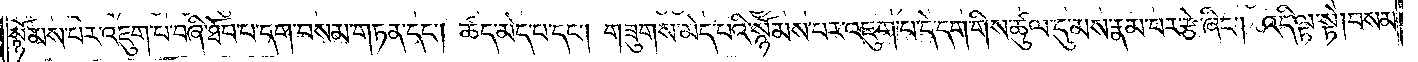སྙོམས་པར་འཇུག་པ་བཞི་ཐོབ་པ་དག་བསམ་གཏན་དང༌། ཚད་མེད་པ་དང༌། གཟུགས་མེད་པའི་སྙོམས་པར་འཇུག་པ་དེ་དག་གིས་ཚུལ་དུ་མས་རྣམ་པར་རྩེ་ཞིང༌། འདི་ལྟ་སྟེ། བསམ་
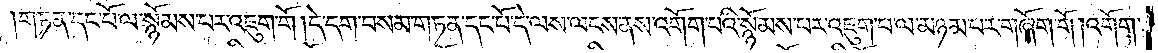གཏན་དང་པོ་ལ་སྙོམས་པར་འཇུག་གོ །དེ་དག་བསམ་གཏན་དང་པོ་དེ་ལས་ལངས་ནས་འགོག་པའི་སྙོམས་པར་འཇུག་པ་ལ་མཉམ་པར་གཞོག་གོ །འགོག་
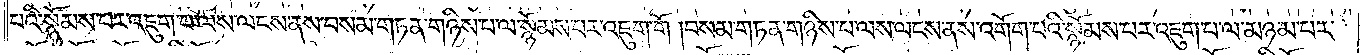པའི་སྙོམས་པར་འཇུག་པ་ལས་ལངས་ནས་བསམ་གཏན་གཉིས་པ་ལ་སྙོམས་པར་འཇུག་གོ །བསམ་གཏན་གཉིས་པ་ལས་ལངས་ནས་འགོག་པའི་སྙོམས་པར་འཇུག་པ་ལ་མཉམ་པར་
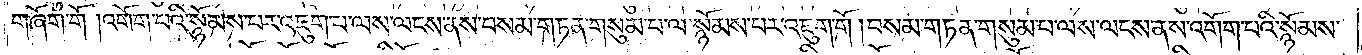གཞོག་གོ །འགོག་པའི་སྙོམས་པར་འཇུག་པ་ལས་ལངས་ནས་བསམ་གཏན་གསུམ་པ་ལ་སྙོམས་པར་འཇུག་གོ །བསམ་གཏན་གསུམ་པ་ལས་ལངས་ནས་འགོག་པའི་སྙོམས་
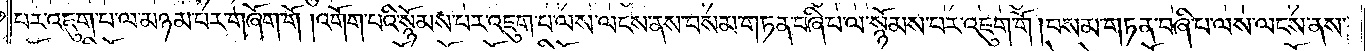པར་འཇུག་པ་ལ་མཉམ་པར་གཞོག་གོ །འགོག་པའི་སྙོམས་པར་འཇུག་པ་ལས་ལངས་ནས་བསམ་གཏན་བཞི་པ་ལ་སྙོམས་པར་འཇུག་གོ །བསམ་གཏན་བཞི་པ་ལས་ལངས་ནས་
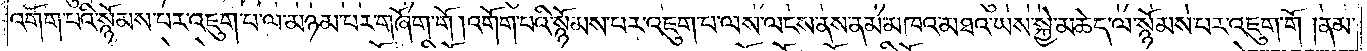འགོག་པའི་སྙོམས་པར་འཇུག་པ་ལ་མཉམ་པར་གཞོག་གོ །འགོག་པའི་སྙོམས་པར་འཇུག་པ་ལས་ལངས་ནས་ནམ་མཁའ་མཐའ་ཡས་སྐྱེ་མཆེད་ལ་སྙོམས་པར་འཇུག་གོ །ནམ་
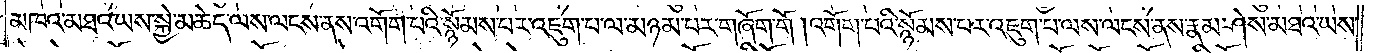མཁའ་མཐའ་ཡས་སྐྱེ་མཆེད་ལས་ལངས་ནས་འགོག་པའི་སྙོམས་པར་འཇུག་པ་ལ་མཉམ་པར་གཞོག་གོ །འགོག་པའི་སྙོམས་པར་འཇུག་པ་ལས་ལངས་ནས་རྣམ་ཤེས་མཐའ་ཡས་
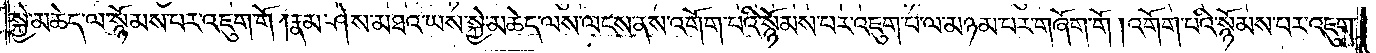སྐྱེ་མཆེད་ལ་སྙོམས་པར་འཇུག་གོ །རྣམ་ཤེས་མཐའ་ཡས་སྐྱེ་མཆེད་ལས་ལངས་ནས་འགོག་པའི་སྙོམས་པར་འཇུག་པ་ལ་མཉམ་པར་གཞོག་གོ །འགོག་པའི་སྙོམས་པར་འཇུག་
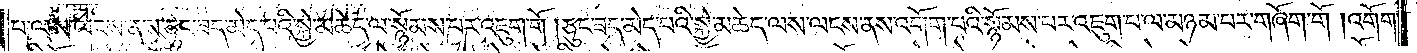པ་ལས་ལངས་ནས་ཅུང་ཟད་མེད་པའི་སྐྱེ་མཆེད་ལ་སྙོམས་པར་འཇུག་གོ །ཅུང་ཟད་མེད་པའི་སྐྱེ་མཆེད་ལས་ལངས་ནས་འགོག་པའི་སྙོམས་པར་འཇུག་པ་ལ་མཉམ་པར་གཞོག་གོ །འགོག་
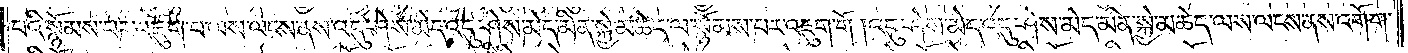པའི་སྙོམས་པར་འཇུག་པ་ལས་ལངས་ནས་འདུ་ཤེས་མེད་འདུ་ཤེས་མེད་མིན་སྐྱེ་མཆེད་ལ་སྙོམས་པར་འཇུག་གོ །འདུ་ཤེས་མེད་འདུ་ཤེས་མེད་མིན་སྐྱེ་མཆེད་ལས་ལངས་ནས་འགོག་
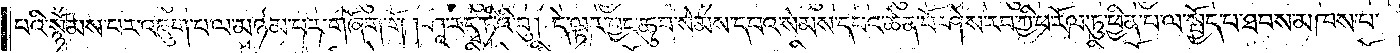པའི་སྙོམས་པར་འཇུག་པ་ལ་མཉམ་པར་གཞོག་གོ །ཤཱ་ར་དྭ་ཏིའི་བུ། དེ་ལྟར་བྱང་ཆུབ་སེམས་དཔའ་སེམས་དཔའ་ཆེན་པོ་ཤེས་རབ་ཀྱི་ཕ་རོལ་ཏུ་ཕྱིན་པ་ལ་སྤྱོད་པ་ཐབས་མཁས་པ་
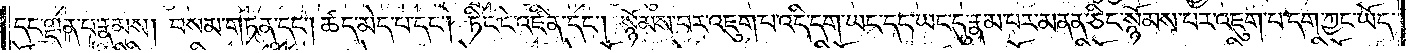དང་ལྡན་པ་རྣམས། བསམ་གཏན་དང༌། ཚད་མེད་པ་དང༌། ཏིང་ངེ་འཛིན་དང༌། སྙོམས་པར་འཇུག་པ་འདི་དག་ཡང་དང་ཡང་དུ་རྣམ་པར་མནན་ཅིང་སྙོམས་པར་འཇུག་པ་དག་ཀྱང་ཡོད་
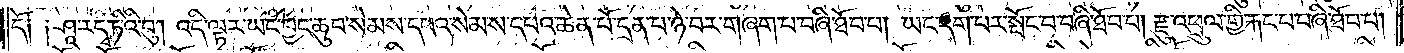དོ༑ ༑ཤཱ་ར་དྭ་ཏིའི་བུ། འདི་ལྟར་ཡང་བྱང་ཆུབ་སེམས་དཔའ་སེམས་དཔའ་ཆེན་པོ་དྲན་པ་ཉེ་བར་གཞག་པ་བཞི་ཐོབ་པ། ཡང་དག་པར་སྤོང་བ་བཞི་ཐོབ་པ། རྫུ་འཕྲུལ་གྱི་རྐང་པ་བཞི་ཐོབ་པ།
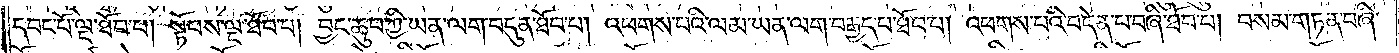དབང་པོ་ལྔ་ཐོབ་པ། སྟོབས་ལྔ་ཐོབ་པ། བྱང་ཆུབ་ཀྱི་ཡན་ལག་བདུན་ཐོབ་པ། འཕགས་པའི་ལམ་ཡན་ལག་བརྒྱད་པ་ཐོབ་པ། འཕགས་པའི་བདེན་པ་བཞི་ཐོབ་པ། བསམ་གཏན་བཞི་
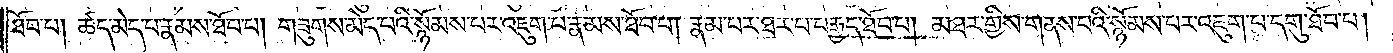ཐོབ་པ། ཚད་མེད་པ་རྣམས་ཐོབ་པ། གཟུགས་མེད་པའི་སྙོམས་པར་འཇུག་པ་རྣམས་ཐོབ་པ། རྣམ་པར་ཐར་པ་བརྒྱད་ཐོབ་པ། མཐར་གྱིས་གནས་པའི་སྙོམས་པར་འཇུག་པ་དགུ་ཐོབ་པ།
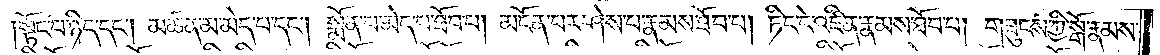སྟོང་པ་ཉིད་དང༌། མཚན་མ་མེད་པ་དང༌། སྨོན་པ་མེད་པ་ཐོབ་པ། མངོན་པར་ཤེས་པ་རྣམས་ཐོབ་པ། ཏིང་ངེ་འཛིན་རྣམས་ཐོབ་པ། གཟུངས་ཀྱི་སྒོ་རྣམས་
